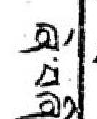ཞེ་བཞི་
